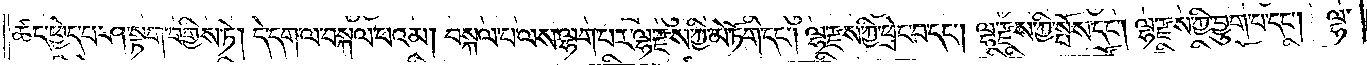ཚད་ཕྱེད་པ་ཤ་སྟག་བགྱིས་ཏེ། དེ་དག་ལ་བསྐལ་པའམ། བསྐལ་པ་ལས་ལྷག་མར་ལྷ་རྫས་ཀྱི་མེ་ཏོག་དང༌། ལྷ་རྫས་ཀྱི་ཕྲེང་བ་དང༌། ལྷ་རྫས་ཀྱི་སྤོས་དང༌། ལྷ་རྫས་ཀྱི་བྱུག་པ་དང༌། ལྷ་
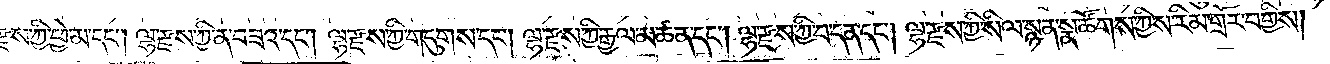རྫས་ཀྱི་ཕྱེ་མ་དང༌། ལྷ་རྫས་ཀྱི་ན་བཟའ་དང༌། ལྷ་རྫས་ཀྱི་གདུགས་དང༌། ལྷ་རྫས་ཀྱི་རྒྱལ་མཚན་དང༌། ལྷ་རྫས་ཀྱི་བ་དན་དང༌། ལྷ་རྫས་ཀྱི་སིལ་སྙན་སྣ་ཚོགས་ཀྱིས་རིམ་གྲོར་བགྱིས།
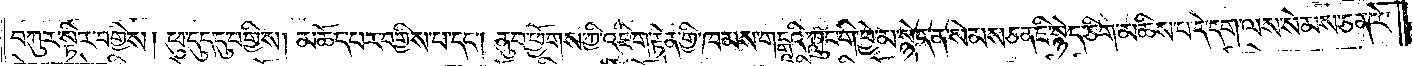བཀུར་སྟིར་བགྱིས། ཕུ་དུད་དུ་བགྱིས། མཆོད་པར་བགྱིས་པ་དང༌། ནུབ་ཕྱོགས་ཀྱི་འཇིག་རྟེན་གྱི་ཁམས་གངྒཱའི་ཀླུང་གི་བྱེ་མ་སྙེད་ན་སེམས་ཅན་ཇི་སྙེད་ཅིག་མཆིས་པ་དེ་དག་ལས་སེམས་ཅན་རེ་
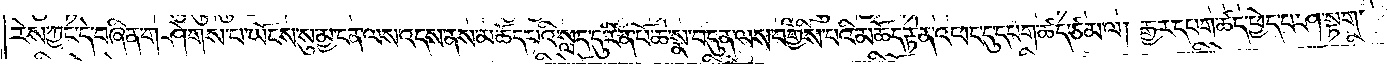རེས་ཀྱང་དེ་བཞིན་གཤེགས་པ་ཡོངས་སུ་མྱ་ངན་ལས་འདས་ནས་མཆོད་པའི་སླད་དུ་རིན་པོ་ཆེ་སྣ་བདུན་ལས་བགྱིས་པའི་མཆོད་རྟེན་འཕང་དུ་དཔག་ཚད་ཙམ་ལ། རྒྱར་དཔག་ཚད་ཕྱེད་པ་ཤ་སྟག་
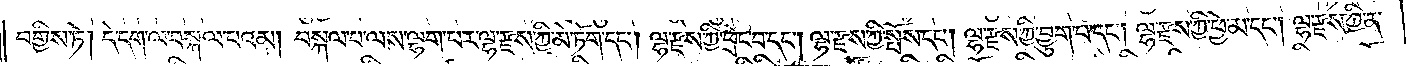བགྱིས་ཏེ། དེ་དག་ལ་བསྐལ་པའམ། བསྐལ་པ་ལས་ལྷག་མར་ལྷ་རྫས་ཀྱི་མེ་ཏོག་དང༌། ལྷ་རྫས་ཀྱི་ཕྲེང་བ་དང༌། ལྷ་རྫས་ཀྱི་སྤོས་དང༌། ལྷ་རྫས་ཀྱི་བྱུག་པ་དང༌། ལྷ་རྫས་ཀྱི་ཕྱེ་མ་དང༌། ལྷ་རྫས་ཀྱི་ན་
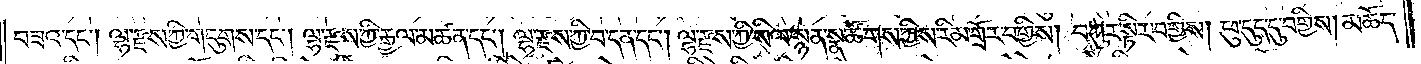བཟའ་དང༌། ལྷ་རྫས་ཀྱི་གདུགས་དང༌། ལྷ་རྫས་ཀྱི་རྒྱལ་མཚན་དང༌། ལྷ་རྫས་ཀྱི་བ་དན་དང༌། ལྷ་རྫས་ཀྱི་སིལ་སྙན་སྣ་ཚོགས་ཀྱིས་རིམ་གྲོར་བགྱིས། བཀུར་སྟིར་བགྱིས། ཕུ་དུད་དུ་བགྱིས། མཆོད་
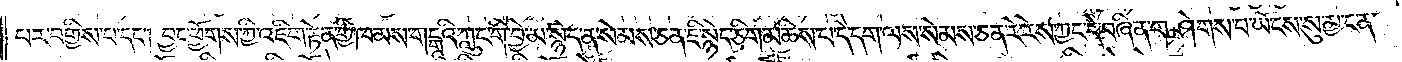པར་བགྱིས་པ་དང༌། བྱང་ཕྱོགས་ཀྱི་འཇིག་རྟེན་གྱི་ཁམས་གངྒཱའི་ཀླུང་གི་བྱེ་མ་སྙེད་ན་སེམས་ཅན་ཇི་སྙེད་ཅིག་མཆིས་པ་དེ་དག་ལས་སེམས་ཅན་རེ་རེས་ཀྱང་དེ་བཞིན་གཤེགས་པ་ཡོངས་སུ་མྱ་ངན་
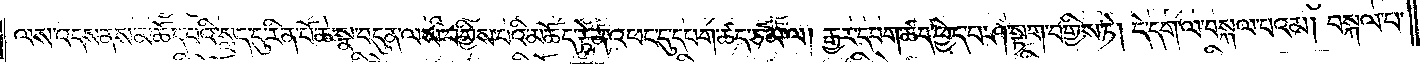ལས་འདས་ནས་མཆོད་པའི་སླད་དུ་རིན་པོ་ཆེ་སྣ་བདུན་ལས་བགྱིས་པའི་མཆོད་རྟེན་འཕང་དུ་དཔག་ཚད་ཙམ་ལ། རྒྱར་དཔག་ཚད་ཕྱེད་པ་ཤ་སྟག་བགྱིས་ཏེ། དེ་དག་ལ་བསྐལ་པའམ། བསྐལ་པ་
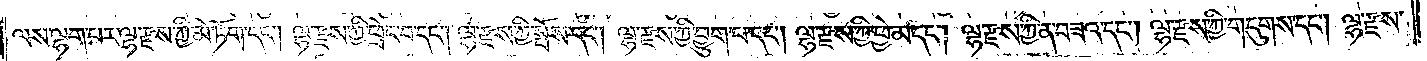ལྷག་མར་ལྷ་རྫས་ཀྱི་མེ་ཏོག་དང༌། ལྷ་རྫས་ཀྱི་ཕྲེང་བ་དང༌། ལྷ་རྫས་ཀྱི་སྤོས་དང༌། ལྷ་རྫས་ཀྱི་བྱུག་པ་དང༌། ལྷ་རྫས་ཀྱི་ཕྱེ་མ་དང༌། ལྷ་རྫས་ཀྱི་ན་བཟའ་དང༌། ལྷ་རྫས་ཀྱི་གདུགས་དང༌། ལྷ་རྫས་
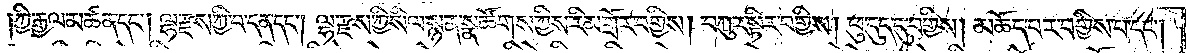ཀྱི་རྒྱལ་མཚན་དང༌། ལྷ་རྫས་ཀྱི་བ་དན་དང༌། ལྷ་རྫས་ཀྱི་སིལ་སྙན་སྣ་ཚོགས་ཀྱིས་རིམ་གྲོར་བགྱིས། བཀུར་སྟིར་བགྱིས། ཕུ་དུད་དུ་བགྱིས། མཆོད་པར་བགྱིས་པ་དང༌།
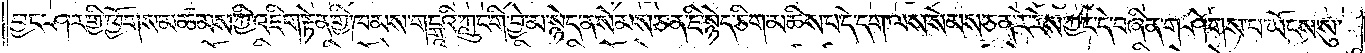བྱང་ཤར་གྱི་ཕྱོགས་མཚམས་ཀྱི་འཇིག་རྟེན་གྱི་ཁམས་གངྒཱའི་ཀླུང་གི་བྱེ་མ་སྙེད་ན་སེམས་ཅན་ཇི་སྙེད་ཅིག་མཆིས་པ་དེ་དག་ལས་སེམས་ཅན་རེ་རེས་ཀྱང་དེ་བཞིན་གཤེགས་པ་ཡོངས་སུ་
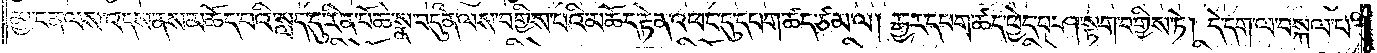མྱ་ངན་ལས་འདས་ནས་མཆོད་པའི་སླད་དུ། རིན་པོ་ཆེ་སྣ་བདུན་ལས་བགྱིས་པའི་མཆོད་རྟེན་འཕང་དུ་དཔག་ཚད་ཙམ་ལ། རྒྱར་དཔག་ཚད་ཕྱེད་པ་ཤ་སྟག་བགྱིས་ཏེ། དེ་དག་ལ་བསྐལ་པ་
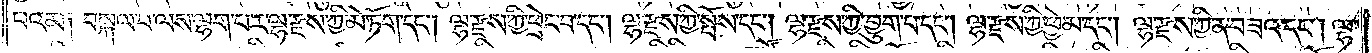བའམ། བསྐལ་པ་ལས་ལྷག་མར་ལྷ་རྫས་ཀྱི་མེ་ཏོག་དང༌། ལྷ་རྫས་ཀྱི་ཕྲེང་བ་དང༌། ལྷ་རྫས་ཀྱི་སྤོས་དང༌། ལྷ་རྫས་ཀྱི་བྱུག་པ་དང༌། ལྷ་རྫས་ཀྱི་ཕྱེ་མ་དང༌། ལྷ་རྫས་ཀྱི་ན་བཟའ་དང༌། ལྷ་
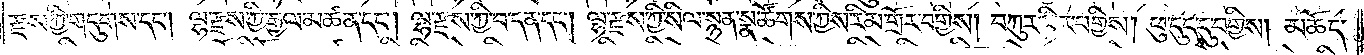རྫས་ཀྱི་གདུགས་དང༌། ལྷ་རྫས་ཀྱི་རྒྱལ་མཚན་དང༌། ལྷ་རྫས་ཀྱི་བ་དན་དང༌། ལྷ་རྫས་ཀྱི་སིལ་སྙན་སྣ་ཚོགས་ཀྱིས་རིམ་གྲོར་བགྱིས། བཀུར་སྟིར་བགྱིས། ཕུ་དུད་དུ་བགྱིས། མཆོད་
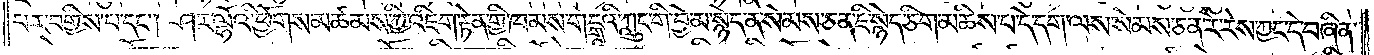པར་བགྱིས་པ་དང༌། ཤར་ལྷོའི་ཕྱོགས་མཚམས་ཀྱི་འཇིག་རྟེན་གྱི་ཁམས་གངྒཱའི་ཀླུང་གི་བྱེ་མ་སྙེད་ན་སེམས་ཅན་ཇི་སྙེད་ཅིག་མཆིས་པ་དེ་དག་ལས་སེམས་ཅན་རེ་རེས་ཀྱང་དེ་བཞིན་
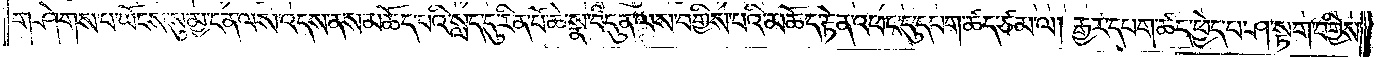གཤེགས་པ་ཡོངས་སུ་མྱ་ངན་ལས་འདས་ནས་མཆོད་པའི་སླད་དུ་རིན་པོ་ཆེ་སྣ་བདུན་ལས་བགྱིས་པའི་མཆོད་རྟེན་འཕང་དུ་དཔག་ཚད་ཙམ་ལ། རྒྱར་དཔག་ཚད་ཕྱེད་པ་ཤ་སྟག་བགྱིས་
